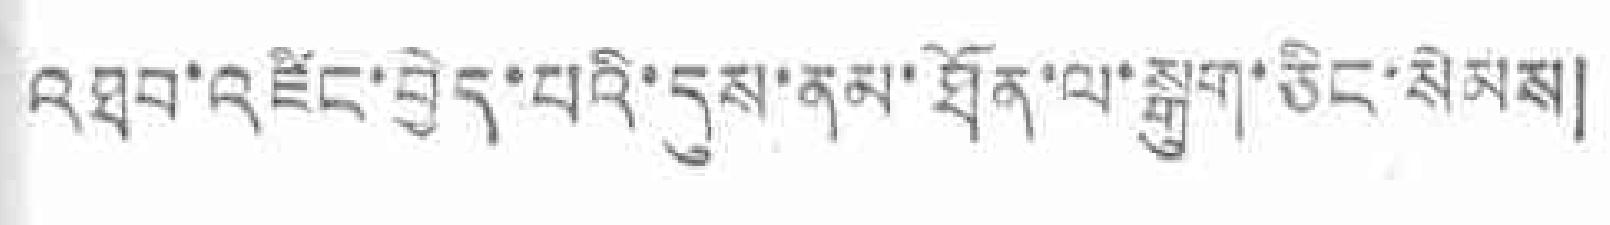འཐབ་འཛིང་བྱེད་པའི་དུས་ནམ་ཐོན་ལ་སྒུག་ཅིང་སེམས།
